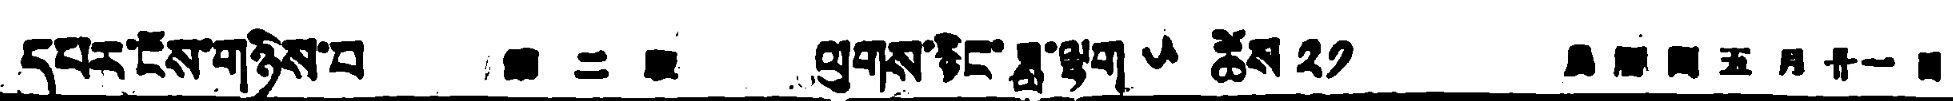དཔར་ངོས་གཉིས་པ 第二版 ལུགས་རྙིང་ཟླ་ལྷག ༥ ཚེས ༢༡ 農曆閏五月廿一日
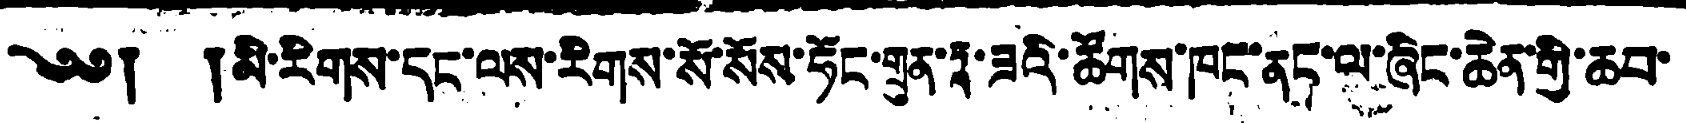༄༅། །མི་རིགས་དང་ལས་རིགས་སོ་སོས་ཧོང་གྲུན་ཏཱ་ཟའི་ཚོགས་ཁང་ནང་ལ་ཞིང་ཆེན་གྱི་ཆབ་
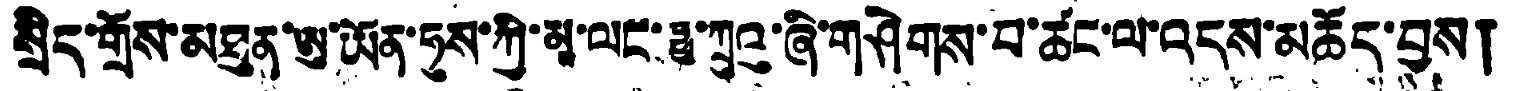སྲིད་གྲོས་མཐུན་ཨུ་ཡོན་ཧུས་ཀྱི་མཱ་ལང་ཧྥུ་ཀྲུའུ་ཞི་གཤེགས་པ་ཚང་ལ་འདས་མཆོད་བྱས།
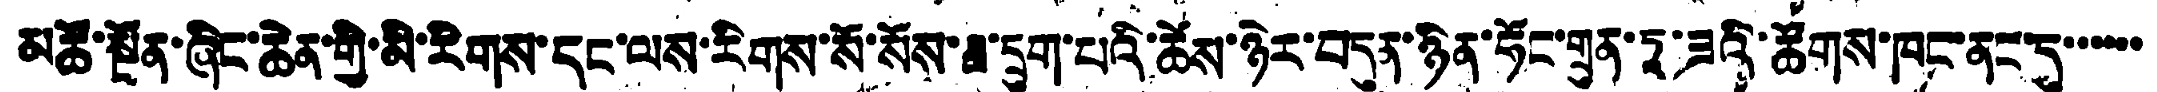མཚོ་སྔོན་ཞིང་ཆེན་གྱི་མི་རིགས་དང་ལས་རིགས་སོ་སོས་ཟླ་དྲུག་པའི་ཆོས་ཉེར་བདུན་ཉིན་ཧོང་གྲུན་ཏྰ་ཟའི་ཚོགས་ཁང་ནང་དུ་་་་་་་
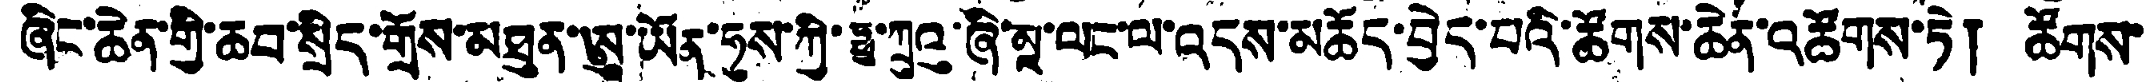ཞིང་ཆེན་གྱི་ཆབ་སྲིད་གྲོས་མཐུན་ཨུ་ཡོན་ཧུས་ཀྱི་ཧྥུ་ཀྲུའུ་ཞི་མཱ་ལང་ལ་འདས་མཆོད་བྱེད་པའི་ཚོགས་ཆེན་འཚོགས་ཏེ། ཚོགས་
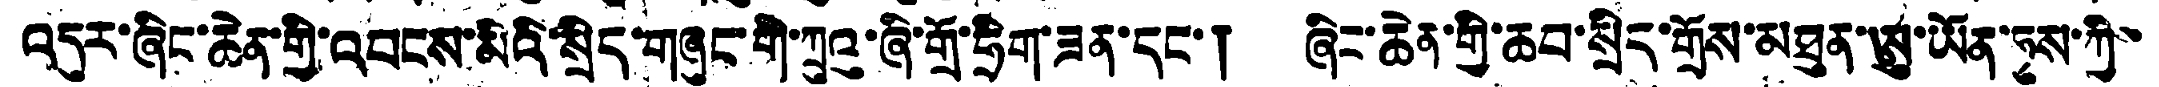འདུར་ཞིང་ཆེན་གྱི་འབངས་མིའི་སྲིད་གཞུང་གི་ཀྲུའུ་ཞི་གྲོ་ཧྲིག་ཟན་དང་། ཞིང་ཆེན་གྱི་ཆབ་སྲིད་གྲོས་མཐུན་ཨུ་ཡོན་ཧུས་ཀྱི་
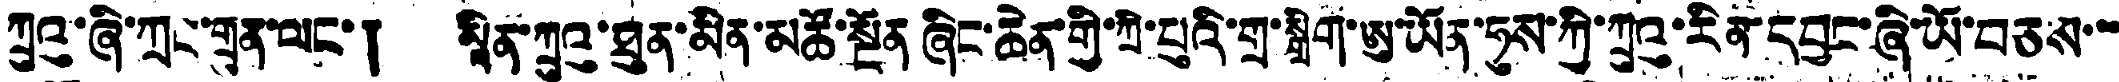ཀྲུའུ་ཞི་ཀྲང་གྲུན་ལང་། མཱིན་ཀྲུའུ་ཐུན་མིན་མཚོ་སྔོན ཞིང་ཆེན་གྱི་ཀྲི་པུའི་གྲ་སྒྲིག་ཨུ་ཡོན་ཧུས་ཀྱི་ཀྲུའུ་རིན་དབྱང་ཞི་ཡོ་བཅས་་་
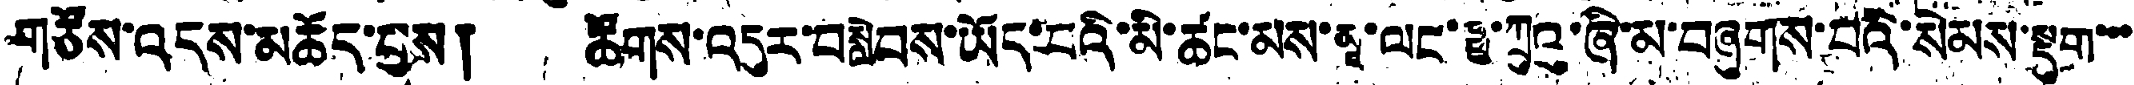གཙོས་འདས་མཆོད་བྱས། ཚོགས་འདུར་བསླེབས་ཡོད་པའི་མི་ཚང་མས་མཱ་ལང་ཧྥུ་ཀྲུའུ་ཞི་མ་བཞུགས་པའི་སེམས་སྡུག་་་
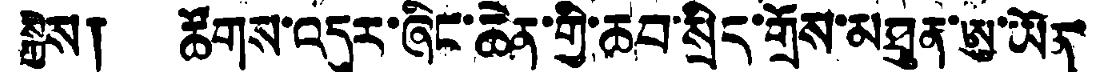སྐྱེས། ཚོགས་འདུར་ཞིང་ཆེན་གྱི་ཆབ་སྲིད་གོས་མཐུན་ཨུ་ཡོན་
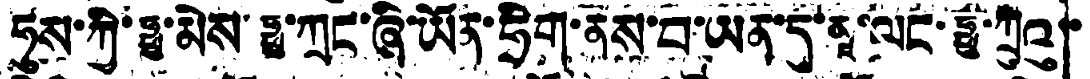ཧས་ཀྱི་ཧྥུ་མེས་ཧྥུ་ཀྲང་ཞི་ཡོན་ཧྲིག་ནས་བ་ཡན་དུ་མཱ་ལང་ཧྥུ་ཀྲུའུ་
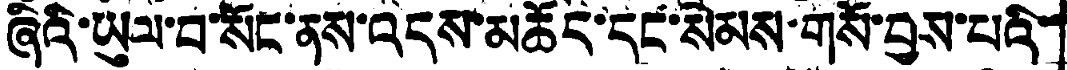ཞིའི་ཡུལ་བ་སོང་ནས་འདས་མཆོད་དང་སེམས་གསོ་བྱས་པའི་
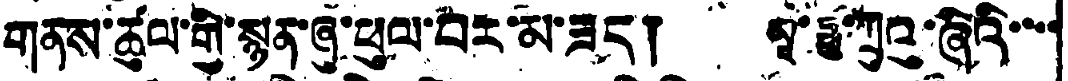གནས་ཚུལ་གྱི་སྙན་ཞུ་ཕུལ་བར་མ་ཟད། མཱ་ཧྥུ་ཀྲུའུ་ཞིའི་་་་
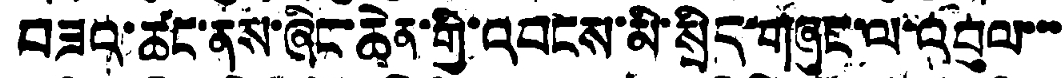བཟའ་ཚང་ནས་ཞིང་ཆེན་གྱི་འབངས་མི་སྲིད་གཞུང་ལ་འབུལ་་་
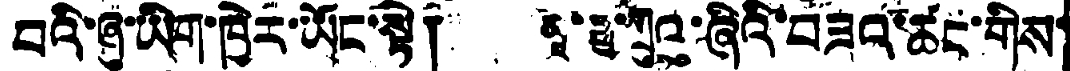བའི་ཞུ་ཡིག་ཁྱེར་ཡོང་སྟེ། མཱ་ཧྥུ་ཀྲུའུ་ཞིའི་བཟའ་ཚང་གིས་
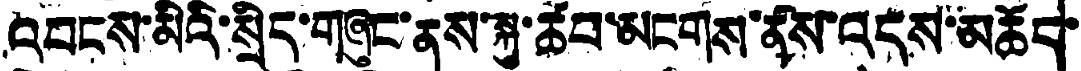འབངས་མིའི་སྲིད་གཞུང་ནས་སྐུ་ཚབ་མངགས་ནས་འདས་མཆོད་
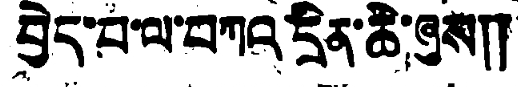བྱེད་པ་ལ་བཀའ་དྲིན་ཆེ་ཞུས༎
